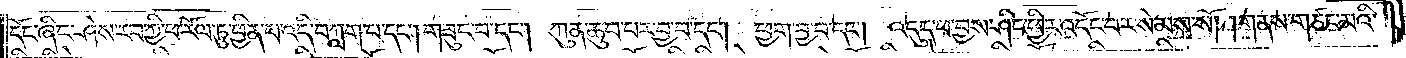དོང་ཞིང་ཤེས་རབ་ཀྱི་ཕ་རོལ་ཏུ་ཕྱིན་པ་འདི་བཀླག་པ་དང༌། གཟུང་བ་དང༌། ཀུན་ཆུབ་པར་བྱ་བ་དང༌། ཕྱག་བྱ་བ་དང༌། འདུད་པ་བྱས་ཤིང་ཕྱིར་འདོང་བར་སེམས་སོ། །གནས་གཙང་མའི་
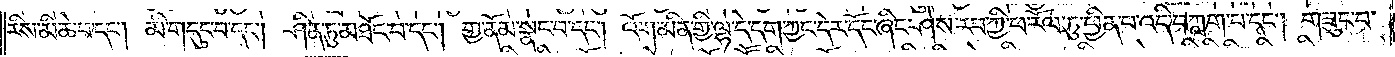རིས་མི་ཆེ་བ་དང༌། མི་གདུང་བ་དང༌། ཤིན་ཏུ་མཐོང་བ་དང༌། གྱ་ནོམ་སྣང་བ་དང༌། འོག་མིན་གྱི་ལྷ་དེ་དག་ཀྱང་དེར་དོང་ཞིང་ཤེས་རབ་ཀྱི་ཕ་རོལ་ཏུ་ཕྱིན་པ་འདི་བཀླག་པ་དང༌། གཟུང་བ་
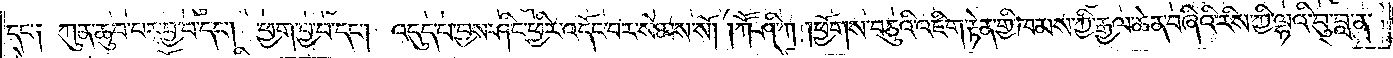དང༌། ཀུན་ཆུབ་པར་བྱ་བ་དང༌། ཕྱག་བྱ་བ་དང༌། འདུད་པ་བྱས་ཤིང་ཕྱིར་འདོང་བར་སེམས་སོ། །ཀཽ་ཤི་ཀ །ཕྱོགས་བཅུའི་འཇིག་རྟེན་གྱི་ཁམས་ཀྱི་རྒྱལ་ཆེན་བཞིའི་རིས་ཀྱི་ལྷའི་བུ་བླ་ན་
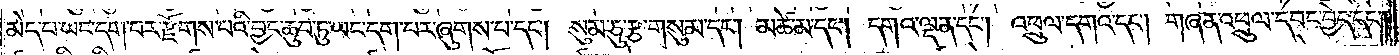མེད་པ་ཡང་དག་པར་རྫོགས་པའི་བྱང་ཆུབ་ཏུ་ཡང་དག་པར་ཞུགས་པ་དང༌། སུམ་ཅུ་རྩ་གསུམ་དང༌། མཚེ་མ་དང༌། དགའ་ལྡན་དང༌། འཕྲུལ་དགའ་དང༌། གཞན་འཕྲུལ་དབང་བྱེད་དང༌།
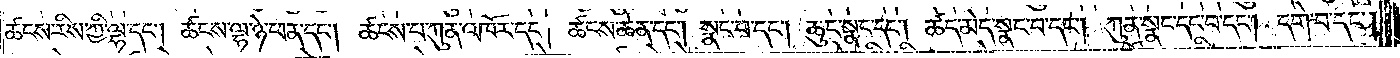ཚངས་རིས་ཀྱི་ལྷ་དང༌། ཚངས་ལྷ་ཉེ་ཕན་དང༌། ཚངས་པ་ཀུན་འཁོར་དང༌། ཚངས་ཆེན་དང༌། སྣང་བ་དང༌། ཆུང་སྣང་དང༌། ཚད་མེད་སྣང་བ་དང༌། ཀུན་སྣང་དང་བ་དང༌། དགེ་བ་དང༌།
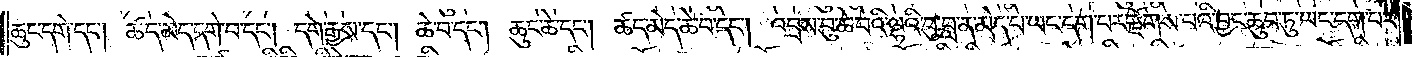ཆུང་དགེ་དང༌། ཚད་མེད་དགེ་བ་དང༌། དགེ་རྒྱས་དང༌། ཆེ་བ་དང༌། ཆུང་ཆེ་དང༌། ཚད་མེད་ཆེ་བ་དང༌། འབྲས་བུ་ཆེ་བའི་ལྷའི་བུ་བླ་ན་མེད་པ་ཡང་དག་པར་རྫོགས་པའི་བྱང་ཆུབ་ཏུ་ཡང་དག་པར་
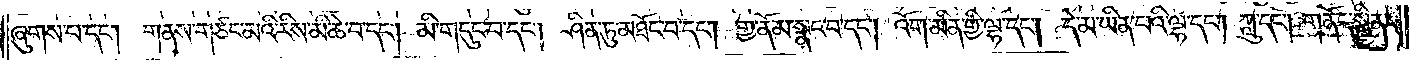ཞུགས་པ་དང༌། གནས་གཙང་མའི་རིས་མི་ཆེ་བ་དང༌། མི་གདུང་བ་དང༌། ཤིན་ཏུ་མཐོང་བ་དང༌། གྱ་ནོམ་སྣང་བ་དང༌། འོག་མིན་གྱི་ལྷ་དང༌། དེ་མ་ཡིན་པའི་ལྷ་དང༌། ཀླུ་དང༌། གནོད་སྦྱིན་
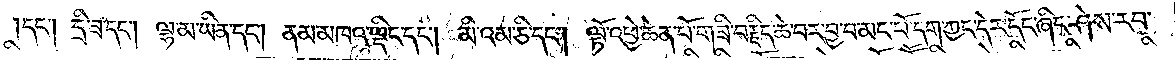དང༌། དྲི་ཟ་དང༌། ལྷ་མ་ཡིན་དང༌། ནམ་མཁའ་ལྡིང་དང༌། མི་འམ་ཅི་དང༌། ལྟོ་འཕྱེ་ཆེན་པོ་གཟི་བརྗིད་ཆེ་བར་བྱ་བ་མང་པོ་དག་ཀྱང་དེར་དོང་ཞིང་ཤེས་རབ་
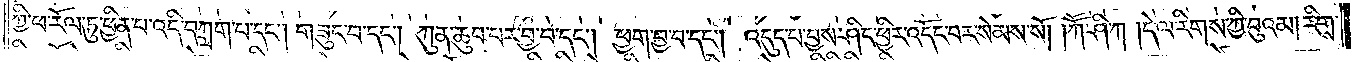ཀྱི་ཕ་རོལ་ཏུ་ཕྱིན་པ་འདི་བཀླག་པ་དང༌། གཟུང་བ་དང༌། ཀུན་ཆུབ་པར་བྱ་བ་དང༌། ཕྱག་བྱ་བ་དང༌། འདུད་པ་བྱས་ཤིང་ཕྱིར་འདོང་བར་སེམས་སོ། །ཀཽ་ཤི་ཀ །དེ་ལ་རིགས་ཀྱི་བུའམ། རིགས་
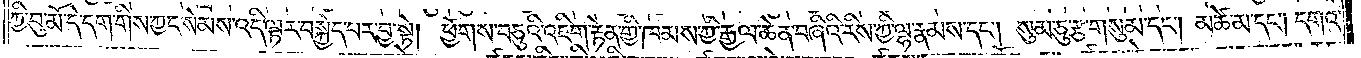ཀྱི་བུ་མོ་དེ་དག་གིས་ཀྱང་སེམས་འདི་ལྟར་བསྐྱེད་པར་བྱ་སྟེ། ཕྱོགས་བཅུའི་འཇིག་རྟེན་གྱི་ཁམས་ཀྱི་རྒྱལ་ཆེན་བཞིའི་རིས་ཀྱི་ལྷ་རྣམས་དང༌། སུམ་ཅུ་རྩ་གསུམ་དང༌། མཚེ་མ་དང༌། དགའ་
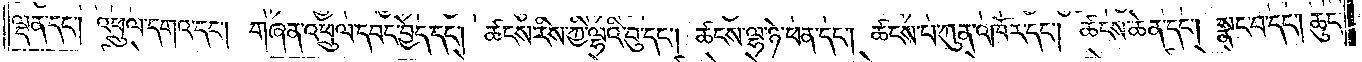ལྡན་དང༌། འཕྲུལ་དགའ་དང༌། གཞན་འཕྲུལ་དབང་བྱེད་དང༌། ཚངས་རིས་ཀྱི་ལྷའི་བུ་དང༌། ཚངས་ལྷ་ཉེ་ཕན་དང༌། ཚངས་པ་ཀུན་འཁོར་དང༌། ཚངས་ཆེན་དང༌། སྣང་བ་དང༌། ཆུང་
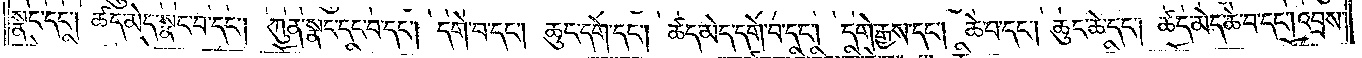སྣང་དང༌། ཚད་མེད་སྣང་བ་དང༌། ཀུན་སྣང་དང་བ་དང༌། དགེ་བ་དང༌། ཆུང་དགེ་དང༌། ཚད་མེད་དགེ་བ་དང༌། དགེ་རྒྱས་དང༌། ཆེ་བ་དང༌། ཆུང་ཆེ་དང༌། ཚད་མེད་ཆེ་བ་དང༌། འབྲས་
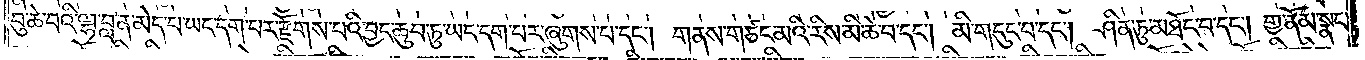བུ་ཆེ་བའི་ལྷ་བླ་ན་མེད་པ་ཡང་དག་པར་རྫོགས་པའི་བྱང་ཆུབ་ཏུ་ཡང་དག་པར་ཞུགས་པ་དང༌། གནས་གཙང་མའི་རིས་མི་ཆེ་བ་དང༌། མི་གདུང་བ་དང༌། ཤིན་ཏུ་མཐོང་བ་དང༌། གྱ་ནོམ་སྣང་
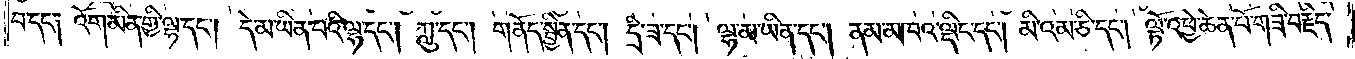བ་དང༌། འོག་མིན་གྱི་ལྷ་དང༌། དེ་མ་ཡིན་པའི་ལྷ་དང༌། ཀླུ་དང༌། གནོད་སྦྱིན་དང༌། དྲི་ཟ་དང༌། ལྷ་མ་ཡིན་དང༌། ནམ་མཁའ་ལྡིང་དང༌། མི་འམ་ཅི་དང༌། ལྟོ་འཕྱེ་ཆེན་པོ་གཟི་བརྗིད་
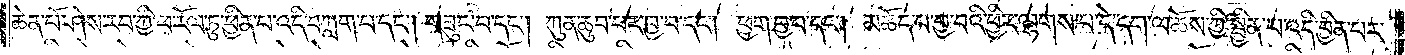ཆེན་པོ་ཤེས་རབ་ཀྱི་ཕ་རོལ་ཏུ་ཕྱིན་པ་འདི་བཀླག་པ་དང༌། གཟུང་བ་དང༌། ཀུན་ཆུབ་པར་བྱ་བ་དང༌། ཕྱག་བྱ་བ་དང༌། མཆོད་པ་བྱ་བའི་ཕྱིར་ལྷགས་པ་དེ་དག་ལ་ཆོས་ཀྱི་སྦྱིན་པ་འདི་བྱིན་པར་
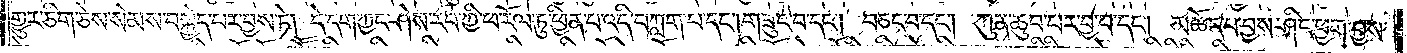གྱུར་ཅིག་ཅེས་སེམས་བསྐྱེད་པར་བྱས་ཏེ། དེ་དག་ཀྱང་ཤེས་རབ་ཀྱི་ཕ་རོལ་ཏུ་ཕྱིན་པ་འདི་བཀླག་པ་དང༌། གཟུང་བ་དང༌། བཅང་བ་དང༌། ཀུན་ཆུབ་པར་བྱ་བ་དང༌། མཆོད་པ་བྱས་ཤིང་ཕྱག་བྱས་
